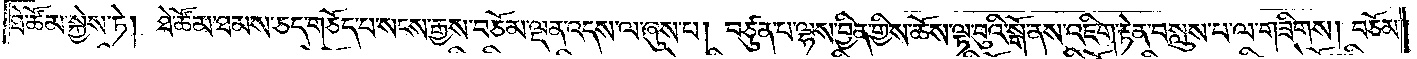ཐེ་ཚོམ་སྐྱེས་ཏེ། ཐེ་ཚོམ་ཐམས་ཅད་གཅོད་པ་སངས་རྒྱས་བཅོམ་ལྡན་འདས་ལ་ཞུས་པ། བཙུན་པ་ལྷས་བྱིན་གྱིས་ཆོས་ལྟ་བུའི་སྒོ་ནས་འཇིག་རྟེན་བསླུས་པ་ལ་གཟིགས། བཅོམ་
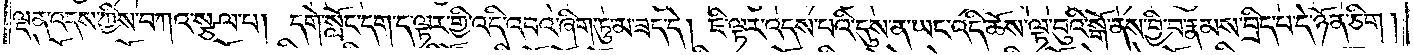ལྡན་འདས་ཀྱིས་བཀའ་སྩལ་པ། དགེ་སློང་དག་ད་ལྟར་གྱི་འདི་འབའ་ཞིག་ཏུ་མ་ཟད་དེ། །ཇི་ལྟར་འདས་པའི་དུས་ན་ཡང་འདི་ཆོས་ལྟ་བུའི་སྒོ་ནས་བྱི་བ་རྣམས་བྲིད་པ་དེ་ཉོན་ཅིག་
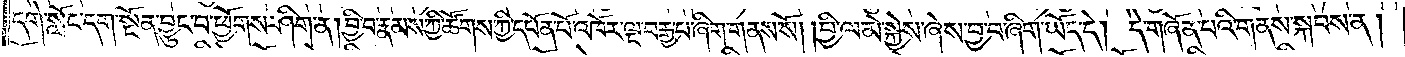དགེ་སློང་དག་སྔོན་བྱུང་བ་ཕྱོགས་ཤིག་ན། བྱི་བ་རྣམས་ཀྱི་ཚོགས་ཀྱི་དཔོན་པོ་འཁོར་ལྔ་བརྒྱ་པ་ཞིག་གནས་སོ། །བྱི་ལ་མེ་སྐྱེས་ཞེས་བྱ་བ་ཞིག་ཡོད་དེ། དེ་གཞོན་པའི་གནས་སྐབས་ན་།
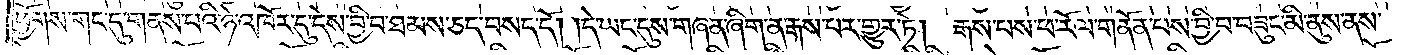ཕྱོགས་གང་དུ་གནས་པའི་ཉེ་འཁོར་དུ་དེས་བྱི་བ་ཐམས་ཅད་བསད་དོ། །དེ་ཡང་དུས་གཞན་ཞིག་ན་རྒས་པར་གྱུར་ཏེ། རྒས་པས་ཕ་རོལ་གནོན་པས་བྱི་བ་བཟུང་མི་ནུས་ནས་
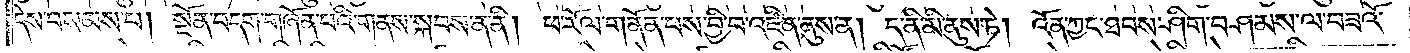དེས་བསམས་པ། སྔོན་བདག་གཞོན་པའི་གནས་སྐབས་ན་ནི། ཕ་རོལ་གནོན་པས་བྱི་བ་འཛིན་ནུས་ན། ད་ནི་མི་ནུས་ཏེ། འོན་ཀྱང་ཐབས་ཤིག་བཤམས་ལ་བཟའོ་
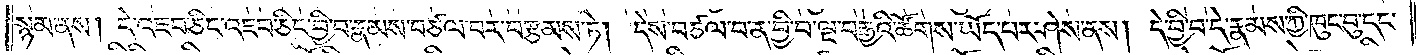སྙམ་ནས། དེ་འཇབ་ཅིང་འཇབ་ཅིང་བྱི་བ་རྣམས་བཙལ་བར་བརྩམས་ཏེ། དེས་བཙལ་བ་ན་བྱི་བ་ལྔ་བརྒྱའི་ཚོགས་ཡོད་པར་ཤེས་ནས། དེ་བྱི་བ་དེ་རྣམས་ཀྱི་ཁུང་བུ་དང་
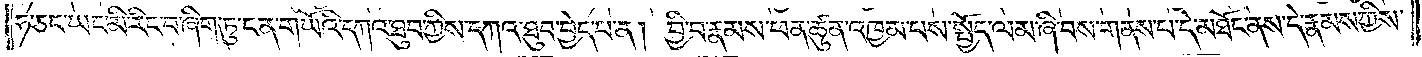ཧ་ཅང་ཡང་མི་རིང་བ་ཞིག་ཏུ་ངན་གཡོའི་དཀའ་ཐུབ་ཀྱིས་དཀའ་ཐུབ་བྱེད་པ་ན། བྱི་བ་རྣམས་ཕན་ཚུན་འཁྱམ་པས་སྤྱོད་ལམ་ཞི་བས་གནས་པ་དེ་མཐོང་ནས་དེ་རྣམས་ཀྱིས་
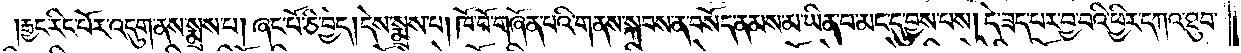རྒྱང་རིང་པོར་འདུག་ནས་སྨྲས་པ། ཞང་པོ་ཅི་བྱེད། དེས་སྨྲས་པ། ཁོ་བོ་གཞོན་པའི་གནས་སྐབས་ན་བསོད་ནམས་མ་ཡིན་པ་མང་དུ་བྱས་པས། དེ་ཟད་པར་བྱ་བའི་ཕྱིར་དཀའ་ཐུབ་
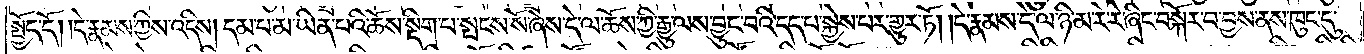སྤྱོད་དོ། །དེ་རྣམས་ཀྱིས་འདིས། དམ་པ་མ་ཡིན་པའི་ཆོས་སྡིག་པ་སྤངས་སོ་ཞེས་དེ་ལ་ཆོས་ཀྱི་རྒྱུ་ལས་བྱུང་བའི་དད་པ་སྐྱེས་པར་གྱུར་ཏོ། །དེ་རྣམས་དེ་ལ་ཉི་མ་རེ་རེ་ཞིང་བསྐོར་བ་བྱས་ནས་ཁུང་དུ་
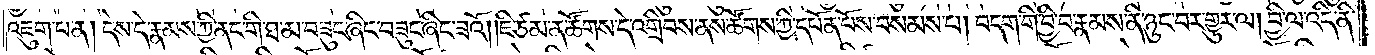འཇུག་པ་ན། དེས་དེ་རྣམས་ཀྱི་ནང་གི་ཐ་མ་བཟུང་ཞིང་བཟུང་ཞིང་ཟའོ། །ཇི་ཙམ་ན་ཚོགས་དེ་འགྲིབས་ནས་ཚོགས་ཀྱི་དཔོན་པོས་བསམས་པ། བདག་གི་བྱི་བ་རྣམས་ནི་ཉུང་བར་གྱུར་ལ། བྱི་ལ་འདི་ནི་
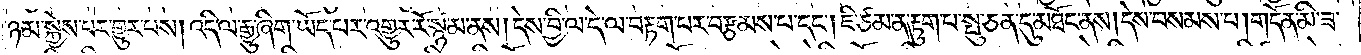ཉམ་སྐྱེས་པར་གྱུར་པས། འདི་ལ་རྒྱུ་ཞིག་ཡོད་པར་འགྱུར་རོ་སྙམ་ནས། དེས་བྱི་ལ་དེ་ལ་བརྟག་པར་བརྩམས་པ་དང༌། ཇི་ཙམ་ན་རྟུག་པ་སྤུ་ཅན་དུ་མཐོང་ནས། དེས་བསམས་པ། གདོན་མི་ཟ་
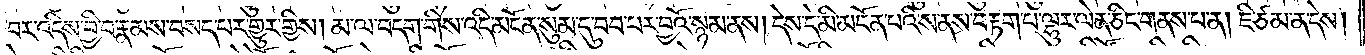བར་འདིས་བྱི་བ་རྣམས་བསད་པར་གྱུར་གྱིས། མ་ལ་བདག་གིས་འདི་མངོན་སུམ་དུ་བབ་པར་བྱའོ་སྙམ་ནས། དེས་དེ་མི་མངོན་པའི་ས་ནས་བརྟག་པ་ལྷུར་ལེན་ཅིང་གནས་པ་ན། ཇི་ཙམ་ན་དེས།
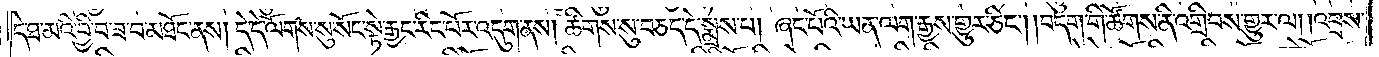དེ་ཐ་མའི་བྱི་བ་ཟ་བ་མཐོང་ནས། དེ་དེ་ལོགས་སུ་སོང་སྟེ་རྒྱང་རིང་པོར་འདུག་ནས་ཚིགས་སུ་བཅད་དེ་སྨྲས་པ། ཞང་པོའི་ཡན་ལག་རྒྱས་གྱུར་ཅིང༌། བདག་གི་ཚོགས་ནི་འགྲིབས་གྱུར་ལ། །འབྲས་
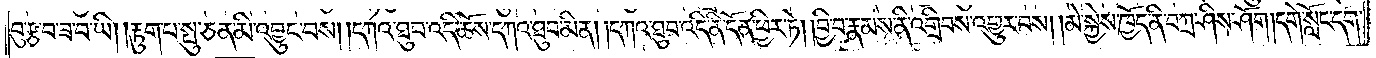བུ་རྩ་བ་ཟ་བ་ཡི། །རྟུག་པ་སྤུ་ཅན་མི་འབྱུང་བས། །དཀའ་ཐུབ་འདི་ཆོས་དཀའ་ཐུབ་མིན། །དཀའ་ཐུབ་འདི་ནི་དོན་ཕྱིར་ཏེ། །བྱི་བ་རྣམས་ནི་འགྲིབས་འགྱུར་པས། །མེ་སྐྱེས་ཁྱོད་ནི་བཀྲ་ཤིས་ཤོག །དགེ་སློང་དག་
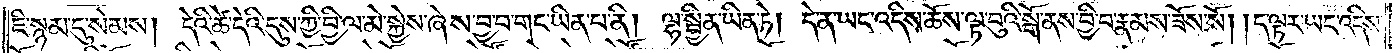ཇི་སྙམ་དུ་སེམས། དེའི་ཚེ་དེའི་དུས་ཀྱི་བྱི་ལ་མེ་སྐྱེས་ཞེས་བྱ་བ་གང་ཡིན་པ་ནི། ལྷ་སྦྱིན་ཡིན་ཏེ། དེ་ན་ཡང་འདིས་ཆོས་ལྟ་བུའི་སྒོ་ནས་བྱི་བ་རྣམས་ཟོས་སོ། ད་ལྟར་ཡང་འདིས་
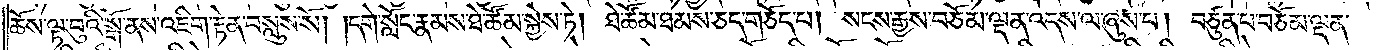ཆོས་ལྟ་བུའི་སྒོ་ནས་འཇིག་རྟེན་བསླུས་སོ། །དགེ་སློང་རྣམས་ཐེ་ཚོམ་སྐྱེས་ཏེ། ཐེ་ཚོམ་ཐམས་ཅད་གཅོད་པ། །སངས་རྒྱས་བཅོམ་ལྡན་འདས་ལ་ཞུས་པ། བཙུན་པ་བཅོམ་ལྡན་
